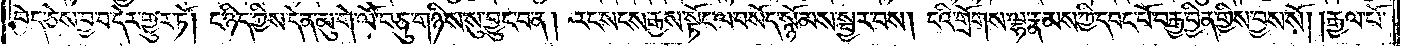བྱེད་ཅེས་བྱ་བ་དེར་གྱུར་ཏོ། ང་ཉིད་ཀྱིས་དེ་ན་མུ་གེ་ལོ་བཅུ་གཉིས་སུ་བྱུང་བ་ན། རང་སངས་རྒྱས་སྟོང་ལ་བསོད་སྙོམས་སྦྱར་བས། ངའི་གྲོགས་ལྷ་རྣམས་ཀྱི་དབང་པོ་བརྒྱ་བྱིན་གྱིས་བྱས་སོ། །རྒྱལ་པོ་
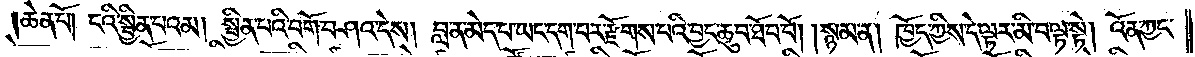ཆེན་པོ། ངའི་སྦྱིན་པའམ། སྦྱིན་པའི་བགོ་བཤའ་དེས། བླ་ན་མེད་པ་ཡང་དག་པར་རྫོགས་པའི་བྱང་ཆུབ་ཐོབ་བོ། །སྙམ་ན། ཁྱོད་ཀྱིས་དེ་ལྟར་མི་བལྟ་སྟེ། འོན་ཀྱང་
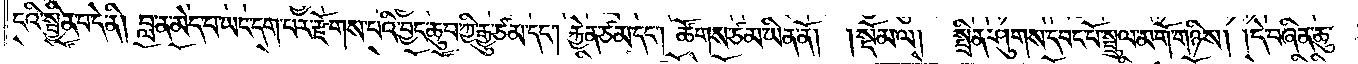ངའི་སྦྱིན་པ་དེ་ནི། བླ་ན་མེད་པ་ཡང་དག་པར་རྫོགས་པའི་བྱང་ཆུབ་ཀྱི་རྒྱུ་ཙམ་དང༌། རྐྱེན་ཙམ་དང༌། ཚོགས་ཙམ་ཡིན་ནོ། །སྡོམ་ལ།<gap>སྤྲིན་ཤུགས་དབང་པོ་སྤྲུལ་མགོ་གཉིས། །དེ་བཞིན་ཆུ་
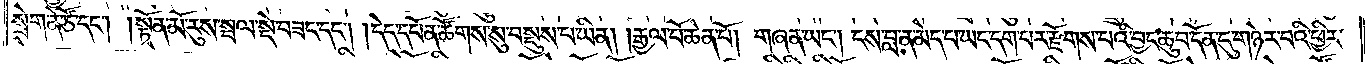སྲེག་ནེ་ཙོ་དང༌། །སྟོན་མོ་རུས་སྦལ་སྡེ་བཟང་དང༌། །དེད་དཔོན་ཚོགས་སུ་བསྡུས་པ་ཡིན། །རྒྱལ་པོ་ཆེན་པོ། གཞན་ཡང༌། ངས་བླ་ན་མེད་པ་ཡང་དག་པར་རྫོགས་པའི་བྱང་ཆུབ་དོན་དུ་གཉེར་བའི་ཕྱིར་
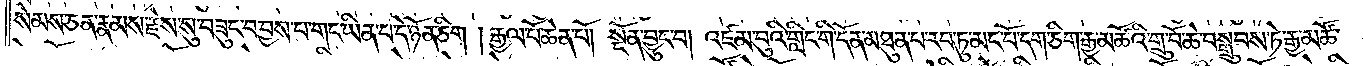སེམས་ཅན་རྣམས་རྗེས་སུ་བཟུང་བ་བྱས་པ་གང་ཡིན་པ་དེ་ཉོན་ཅིག །རྒྱལ་པོ་ཆེན་པོ། སྔོན་བྱུང་བ། འཛམ་བུའི་གླིང་གི་དོན་མཐུན་པ་རབ་ཏུ་མང་པོ་དག་ཅིག་རྒྱ་མཚོའི་གྲུ་བོ་ཆེ་བསྒྲུབས་ཏེ་རྒྱ་མཚོ་
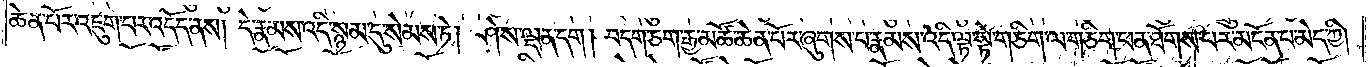ཆེན་པོར་འཇུག་པར་འདོད་ནས། དེ་རྣམས་འདི་སྙམ་དུ་སེམས་ཏེ། ཤེས་ལྡན་དག །བདག་ཅག་རྒྱ་མཚོ་ཆེན་པོར་ཞུགས་པ་རྣམས་འདི་ལྟ་སྟེ་གཅིག་ལ་གཅིག་ཕན་ཐོགས་པར་མངོན་པ་མེད་ཀྱི།
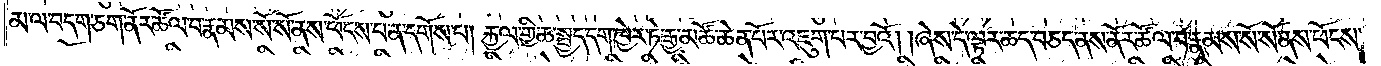མ་ལ་བདག་ཅག་ནོར་ཚོལ་བ་རྣམས་སོ་སོ་ནས་ཕོངས་པ་ན་དགོས་པ། རྐྱལ་གྱི་ཆ་སྤྱད་དག་ཁྱེར་ཏེ་རྒྱ་མཚོ་ཆེན་པོར་འཇུག་པར་བྱའོ། །ཞེས་དེ་ལྟར་ཆད་བཅད་ནས་ནོར་ཚོལ་བ་རྣམས་སོ་སོ་ནས་ཕོངས་
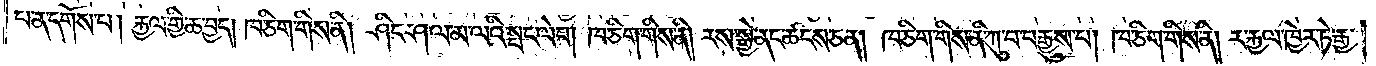པ་ན་དགོས་པ། རྐྱལ་གྱི་ཆ་བྱད། ཁ་ཅིག་གིས་ནི། ཤིང་ཤལ་མ་ལའི་སྤང་ལེབ། ཁ་ཅིག་གིས་ནི། རས་སྒྱེ་ནང་ཚངས་ཅན། ཁ་ཅིག་གིས་ནི་ཀུ་བ་བརྒྱུས་པ། ཁ་ཅིག་གིས་ནི། ར་རྐྱལ་ཁྱེར་ཏེ་རྒྱ་
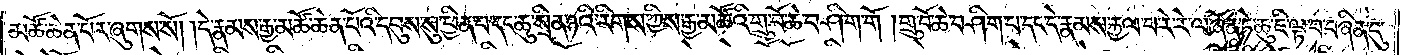མཚོ་ཆེན་པོར་ཞུགས་སོ། །དེ་རྣམས་རྒྱ་མཚོ་ཆེན་པོའི་དབུས་སུ་ཕྱིན་པ་དང་ཆུ་སྲིན་ཉའི་རིགས་ཀྱིས་རྒྱ་མཚོའི་གྲུ་བོ་ཆེ་བཤིག་གོ །གྲུ་བོ་ཆེ་བ་ཤིག་པ་དང་དེ་རྣམས་རྐྱལ་པ་རེ་རེ་ལ་ཞོན་ཏེ་ཆུ་ཇི་ལྟ་བ་བཞིན་དུ་
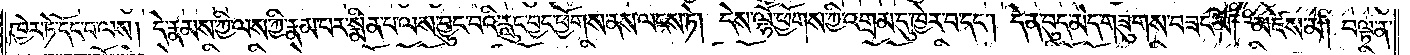ཁྱེར་ཏེ་དོང་བ་ལས། དེ་རྣམས་ཀྱི་ལས་ཀྱི་རྣམ་པར་སྨིན་པ་ལས་བྱུང་བའི་རླུང་བྱང་ཕྱོགས་ནས་ལངས་ཏེ། དེས་ལྷོ་ཕྱོགས་ཀྱི་འགྲམ་དུ་ཁྱེར་བ་དང༌། དེ་ན་བུད་མེད་གཟུགས་བཟང་མོ། མཛེས་མ། བལྟ་ན་
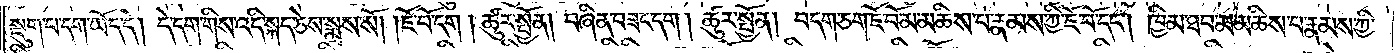སྡུག་པ་དག་ཡོད་དེ། དེ་དག་གིས་འདི་སྐད་ཅེས་སྨྲས་སོ། །ཇོ་བོ་དག །ཚུར་སྤྱོན། བཞིན་བཟང་དག །ཚུར་སྤྱོན། བདག་ཅག་ཇོ་བོ་མ་མཆིས་པ་རྣམས་ཀྱི་ཇོ་བོ་དང༌། ཁྱིམ་ཐབ་མ་མཆིས་པ་རྣམས་ཀྱི་
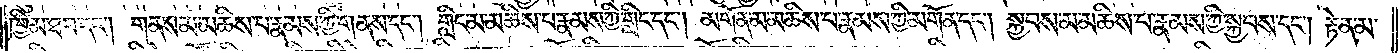ཁྱིམ་ཐབ་དང༌། གནས་མ་མཆིས་པ་རྣམས་ཀྱི་གནས་དང༌། གླིང་མ་མཆིས་པ་རྣམས་ཀྱི་གླིང་དང༌། མགོན་མ་མཆིས་པ་རྣམས་ཀྱི་མགོན་དང༌། སྐྱབས་མ་མཆིས་པ་རྣམས་ཀྱི་སྐྱབས་དང༌། རྟེན་མ་
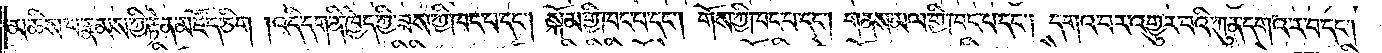མཆིས་པ་རྣམས་ཀྱི་རྟེན་མཛོད་ཅིག །འདི་དག་ནི་ཁྱེད་ཀྱི་ཟས་ཀྱི་ཁང་པ་དང༌། སྐོམ་གྱི་ཁང་པ་དང༌། གོས་ཀྱི་ཁང་པ་དང༌། གནས་མལ་གྱི་ཁང་པ་དང༌། དགའ་བར་འགྱུར་བའི་ཀུན་དགའ་ར་བ་དང༌།
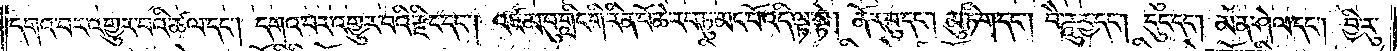དགའ་བར་འགྱུར་བའི་ཚལ་དང༌། དགའ་བར་འགྱུར་བའི་རྫིང་དང༌། འཛམ་བུ་གླིང་གི་རིན་པོ་ཆེ་རབ་ཏུ་མང་བོ་འདི་ལྟ་སྟེ། ནོར་བུ་དང༌། མུ་ཏིག་དང༌། བཻ་ཌཱུརྱ་དང༌། དུང་དང༌། མན་ཤེལ་དང༌། བྱི་རུ་
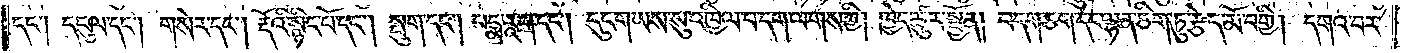དང༌། དངུལ་དང༌། གསེར་དང༌། རྡོའི་སྙིང་པོ་དང༌། སྤུག་དང༌། པདྨ་རཱ་ག་དང༌། དུང་གཡས་སུ་འཁྱིལ་བ་དག་ལགས་ཀྱི། ཁྱེད་ཚུར་སྤྱོན། བདག་ཅག་དང་ལྷན་ཅིག་ཏུ་རྩེད་མོ་བགྱི། དགའ་བར་
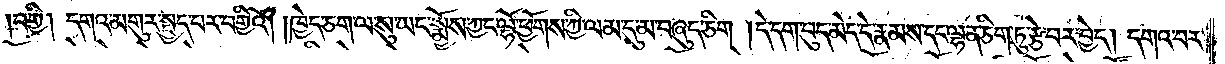བགྱི། དགའ་མགུར་སྤྱད་པར་བགྱིའོ། །ཁྱེད་ཅག་ལ་སུ་ཡང་སྨོས་ཀྱང་ལྷོ་ཕྱོགས་ཀྱི་ལམ་དུ་མ་བཞུད་ཅིག །དེ་དག་བུད་མེད་དེ་རྣམས་དང་ལྷན་ཅིག་ཏུ་རྩེ་བར་བྱེད། དགའ་བར་
